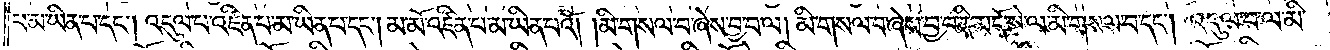པ་མ་ཡིན་པ་དང༌། འདུལ་པ་འཛིན་པ་མ་ཡིན་པ་དང༌། མ་མོ་འཛིན་པ་མ་ཡིན་པའོ། །མི་གསལ་བ་ཞེས་བྱ་བ་ལ། མི་གསལ་བ་ཞེས་བྱ་བ་ནི་མདོ་སྡེ་ལ་མི་གསལ་བ་དང༌། འདུལ་བ་ལ་མི་
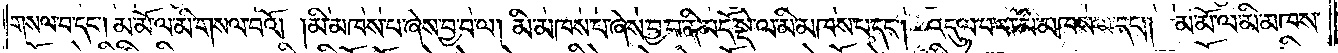གསལ་བ་དང༌། མ་མོ་ལ་མི་གསལ་བའོ། །མི་མཁས་པ་ཞེས་བྱ་བ་ལ། མི་མཁས་པ་ཞེས་བྱ་བ་ནི་མདོ་སྡེ་ལ་མི་མཁས་པ་དང༌། འདུལ་བ་ལ་མི་མཁས་པ་དང༌། མ་མོ་ལ་མི་མཁས་
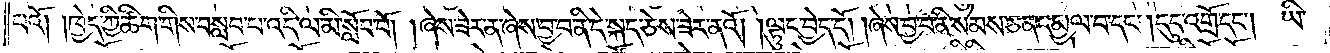པའོ། །ཁྱེད་ཀྱི་ཚིག་གིས་བསླབ་པ་འདི་ལ་མི་སློབ་བོ། །ཞེས་ཟེར་ན་ཞེས་བྱ་བ་ནི་དེ་སྐད་ཅེས་ཟེར་ནའོ། །ལྟུང་བྱེད་དོ། །ཞེས་བྱ་བ་ནི་སེམས་ཅན་དམྱལ་བ་དང༌། དུད་འགྲོ་དང༌། ཡི་
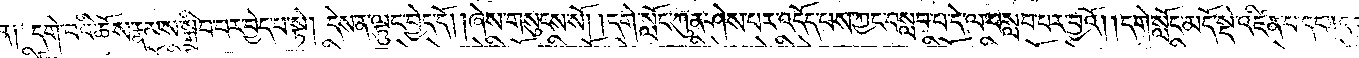ན༑ དགེ་བའི་ཆོས་རྣམས་སྒྲིབ་པར་བྱེད་པ་སྟེ། དེས་ན་ལྟུང་བྱེད་དོ། །ཞེས་གསུངས་སོ། །དགེ་སློང་ཀུན་ཤེས་པར་འདོད་པས་ཀྱང་བསླབ་པ་དེ་ལ་བསླབ་པར་བྱའོ། །དགེ་སློང་མདོ་སྡེ་འཛིན་པ་དང༌།
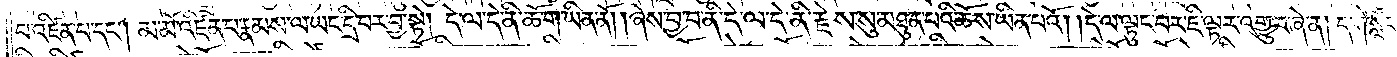བ་འཛིན་པ་དང༌། མ་མོ་འཛིན་པ་རྣམས་ལ་ཡང་དྲི་བར་བྱ་སྟེ། དེ་ལ་དེ་ནི་ཆོ་ག་ཡིན་ནོ། །ཞེས་བྱ་བ་ནི་དེ་ལ་དེ་ནི་རྗེས་སུ་མཐུན་པའི་ཆོས་ཡིན་པའོ། །དེ་ལ་ལྟུང་བར་ཇི་ལྟར་འགྱུར་ཞེ་ན། དགེ་སློང་
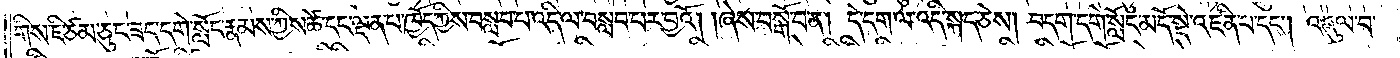གིས་ཇི་ཙམ་ཅུང་ཟད་དགེ་སློང་རྣམས་ཀྱིས་ཚེ་དང་ལྡན་པ་ཁྱོད་ཀྱིས་བསླབ་པ་འདི་ལ་བསླབ་པར་བྱའོ། །ཞེས་བསྒོ་བ་ན། དེ་དག་ལ་འདི་སྐད་ཅེས། བདག་དགེ་སློང་མདོ་སྡེ་འཛིན་པ་དང༌། འདུལ་བ་
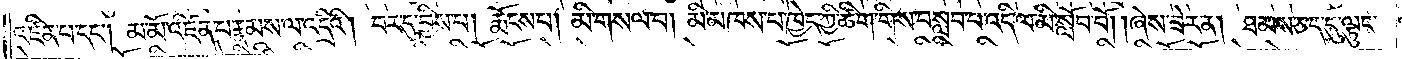འཛིན་པ་དང༌། མ་མོ་འཛིན་པ་རྣམས་ལ་འདྲིའི། བར་དུ་བྱིས་པ། རྨོངས་པ། མི་གསལ་བ། མི་མཁས་པ་ཁྱེད་ཀྱི་ཚིག་གིས་བསླབ་པ་འདི་ལ་མི་སློབ་བོ། །ཞེས་ཟེར་ན། ཐམས་ཅད་དུ་ལྟུང་
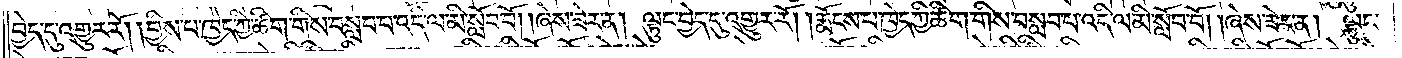བྱེད་དུ་འགྱུར་རོ། །བྱིས་པ་ཁྱོད་ཀྱི་ཚིག་གིས་བསླབ་པ་འདི་ལ་མི་སློབ་བོ། །ཞེས་ཟེར་ན། ལྟུང་བྱེད་དུ་འགྱུར་རོ། །རྨོངས་པ་ཁྱེད་ཀྱི་ཚིག་གིས་བསླབ་པ་འདི་ལ་མི་སློབ་བོ། །ཞེས་ཟེར་ན། ལྟུང་
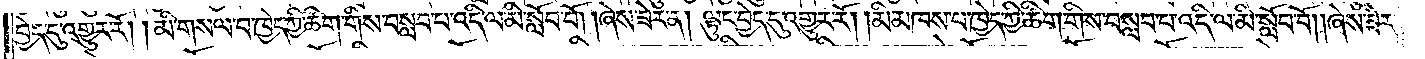བྱེད་དུ་འགྱུར་རོ། །མི་གསལ་བ་ཁྱེད་ཀྱི་ཚིག་གིས་བསླབ་པ་འདི་ལ་མི་སློབ་བོ། །ཞེས་ཟེར་ན། ལྟུང་བྱེད་དུ་འགྱུར་རོ། །མི་མཁས་པ་ཁྱེད་ཀྱི་ཚིག་གིས་བསླབ་པ་འདི་ལ་མི་སློབ་བོ། །ཞེས་ཟེར་
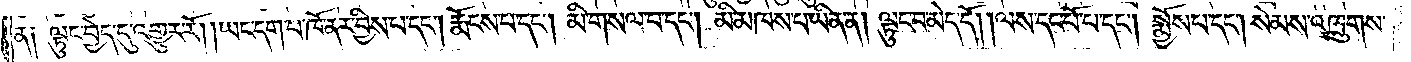ན༑ ལྟུང་བྱེད་དུ་འགྱུར་རོ། །ཡང་དག་པ་ཁོ་ནར་བྱིས་པ་དང༌། རྨོངས་པ་དང༌། མི་གསལ་བ་དང༌། མི་མཁས་པ་ཡིན་ན། ལྟུང་བ་མེད་དོ། །ལས་དང་པོ་པ་དང༌། སྨྱོས་པ་དང༌། སེམས་འཁྲུགས་
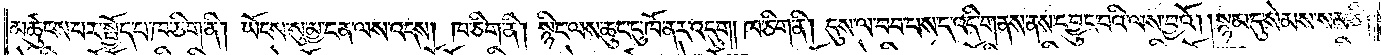མཚུངས་པར་སྤྱོད་པ་ཁ་ཅིག་ནི། ཡོངས་སུ་མྱ་ངན་ལས་འདས། ཁ་ཅིག་ནི། སྙིང་ལས་ཆུང་ངུ་ཁོ་ནར་འདུག །ཁ་ཅིག་ནི། དུས་ལ་བབ་པས་ད་འདི་གནས་ནས་དབྱུང་བའི་ལས་བྱའོ། །སྙམ་དུ་སེམས་སམ་ཅི།
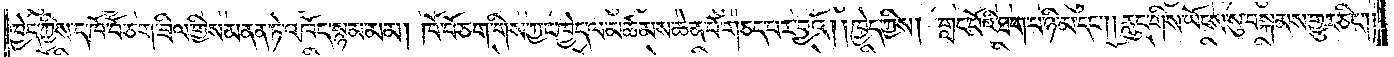ཁྱེད་ཀྱིས་ད་ཁོ་བོ་ཅག་ཟིལ་གྱིས་མནན་ཏེ་འཁོད་སྙམ་མམ། ཁོ་བོ་ཅག་གིས་ཀྱང་ཁྱེད་ལ་མཚམས་ཆེན་པོ་གཅད་པར་བྱའོ། །ཁྱེད་ཀྱིས། གླང་པོའི་ཐག་པ་ཉི་མ་དང༌། །རླུང་གིས་ཡོངས་སུ་བསྐམས་གྱུར་ཅིང༌། །
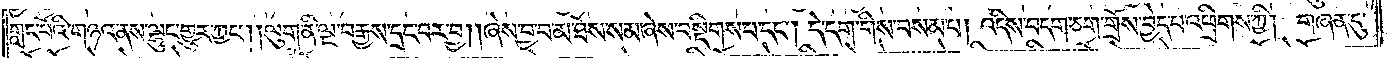གླང་པོའི་གཉའ་ནས་ལྷུང་གྱུར་ཀྱང༌། །ལུག་ནི་ལྔ་བརྒྱས་དྲང་བར་བྱ། །ཞེས་བྱ་བ་མ་ཐོས་སམ་ཞེས་བསྡིགས་པ་དང༌། དེ་དག་གིས་བསམ་པ། འདིས་བདག་ཅག་གྲོས་བྱེད་པ་འཕྲིགས་ཀྱི། གཞན་དུ་
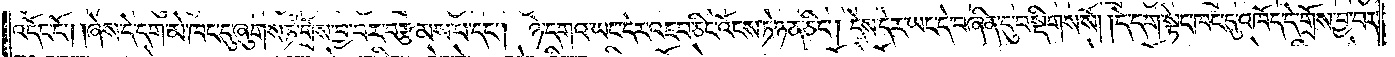འདོང་ངོ༌། །ཞེས་དེ་དག་མེ་ཁང་དུ་ཞུགས་ཏེ་གྲོས་བྱ་བར་བརྩམས་པ་དང༌། ཉེ་དགའ་ཡང་དེར་འཇབ་ཅིང་འོངས་ཏེ་ཉན་ཅིང༌། དེས་དེར་ཡང་དེ་བཞིན་དུ་བསྡིགས་སོ། །དེ་དག་སྟེང་ཁང་དུ་འཁོད་དེ་གྲོས་བྱ་བར་
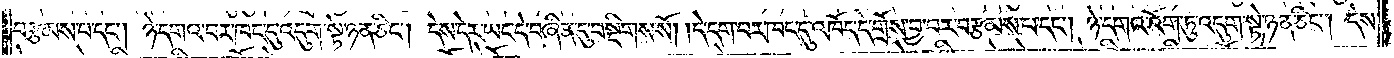བརྩམས་པ་དང༌། ཉེ་དགའ་བར་ཁང་དུ་འདུག་སྟེ་ཉན་ཅིང༌། དེས་དེར་ཡང་དེ་བཞིན་དུ་བསྡིགས་སོ། །དེ་དག་བར་ཁང་དུ་འཁོད་དེ་གྲོས་བྱ་བར་བརྩམས་པ་དང༌། ཉེ་དགའ་འོག་ཏུ་འདུག་སྟེ་ཉན་ཅིང༌། དེས་
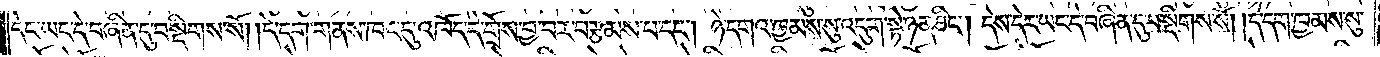དེང་ཡང་དེ་བཞིན་དུ་བསྡིགས་སོ། །དེ་དག་གནས་ཁང་དུ་འཁོད་དེ་གྲོས་བྱ་བར་བརྩམས་པ་དང༌། ཉེ་དགའ་ཁྱམས་སུ་འདུག་སྟེ་ཉན་ཅིང༌། དེས་དེར་ཡང་དེ་བཞིན་དུ་བསྡིགས་སོ། །དེ་དག་ཁྱམས་སུ་
